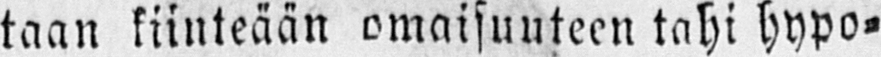taan kiinteään omaisuuteen tahi hypo-
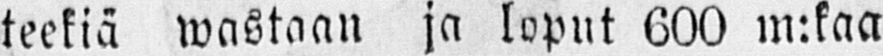teekia wastaan ja loput 600 m:kaa
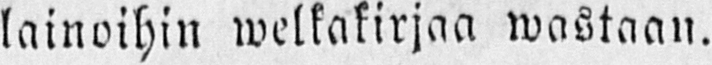lainoihin welkakirjaa wastaan.
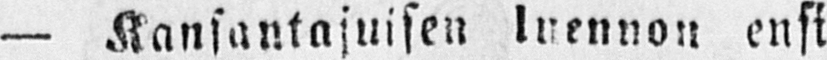— Kansantajuisen luennon ensi
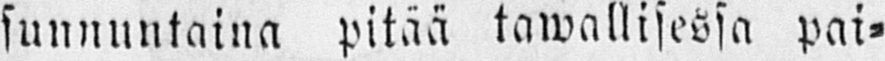sunnuntaina pitää tawallisessa pai-
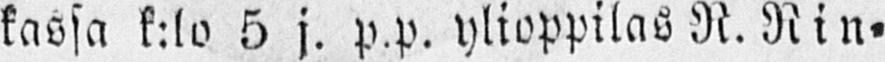kassa k:lo 5 j. p.p. ylioppilas R. Rin-
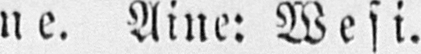ne. Aine: Wesi.
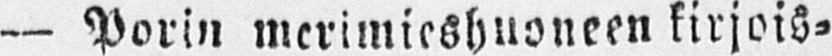— Porin merimieshuoneen kirjois-
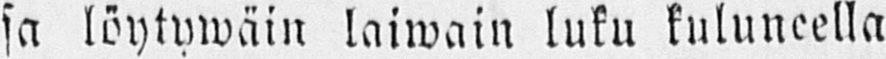sa löytywäin laiwain luku kuluneella
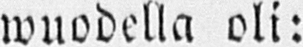wuodella oli:
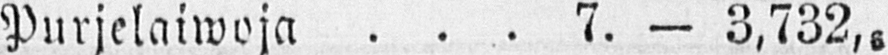Purjelaiwoja 7. — 3.732,6
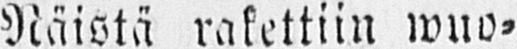Näistä rakettiin wuo-
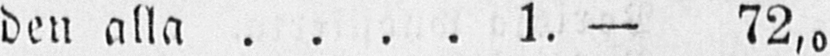den alla 1. — 72,0
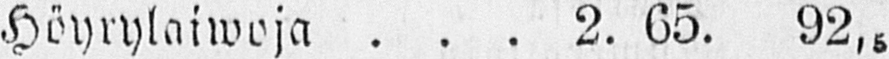Höyrylaiwoja 2. 65. 92,5
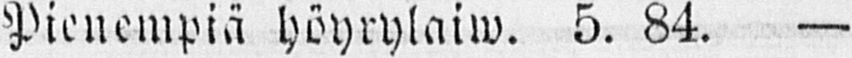Pienempiä höyrylaiw. 5. 84. —
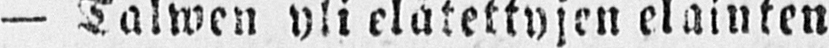— Talwen yli elätettyjen eläinten
